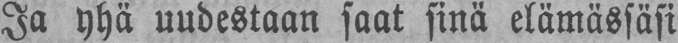Ja yhä uudestaan saat sinä elämässäsi
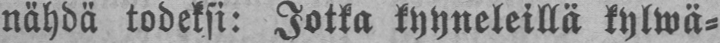nähdä todeksi: Jotka kyyneleillä kylwä-
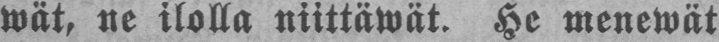wät, ne ilolla niittäwät. He menewät
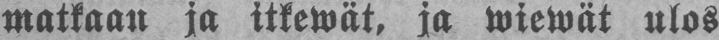matkaan ja itkevät, ja wiewät ulos
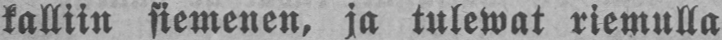kalliin siemenen, ja tulevat riemulla
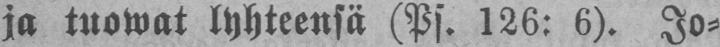ja tuovat lyhteensä (Ps. 126: 6). Jo-
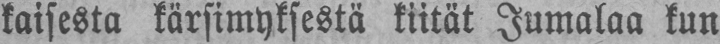kaisesta kärsimyksestä kiität Jumalaa kun
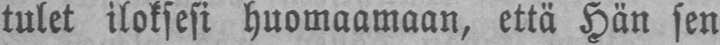tulet iloksesi huomaamaan, että Hän sen
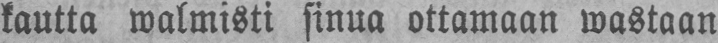kautta walmisti sinua ottamaan wastaan
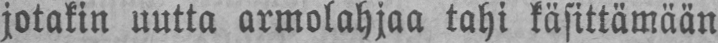jotakin uutta armolahjaa tahi käsittämään
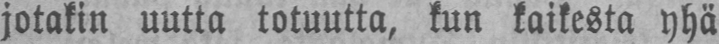jotakin uutta totuutta, kun kaikesta yhä
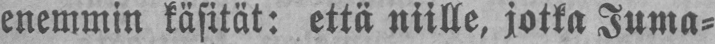enemmin käsität: että niille, jotka Juma-
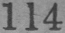114
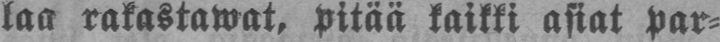laa rakastawat, pitää kaikki asiat par-
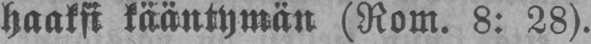haaksi kääntymän (Rom.8:28).
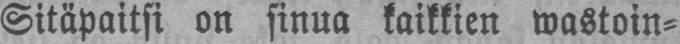Sitäpaitsi on sinua kaikkien wastoin-
